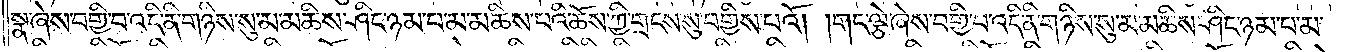སྣ་ཞེས་བགྱི་བ་འདི་ནི་གཉིས་སུ་མ་མཆིས་ཤིང་ཉམ་པ་མ་མཆིས་པའི་ཆོས་ཀྱི་གྲངས་སུ་བགྱིས་པའོ། །གང་ལྕེ་ཞེས་བགྱི་བ་འདི་ནི་གཉིས་སུ་མ་མཆིས་ཤིང་ཉམ་པ་མ་
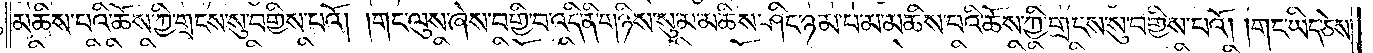མཆིས་པའི་ཆོས་ཀྱི་གྲངས་སུ་བགྱིས་པའོ། །གང་ལུས་ཞེས་བགྱི་བ་འདི་ནི་གཉིས་སུ་མ་མཆིས་ཤིང་ཉམ་པ་མ་མཆིས་པའི་ཆོས་ཀྱི་གྲངས་སུ་བགྱིས་པའོ། །གང་ཡིད་ཅེས་
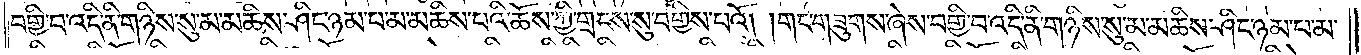བགྱི་བ་འདི་ནི་གཉིས་སུ་མ་མཆིས་ཤིང་ཉམ་པ་མ་མཆིས་པའི་ཆོས་ཀྱི་གྲངས་སུ་བགྱིས་པའོ། །གང་གཟུགས་ཞེས་བགྱི་བ་འདི་ནི་གཉིས་སུ་མ་མཆིས་ཤིང་ཉམ་པ་མ་
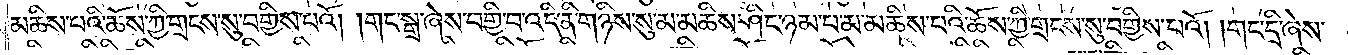མཆིས་པའི་ཆོས་ཀྱི་གྲངས་སུ་བགྱིས་པའོ། །གང་སྒྲ་ཞེས་བགྱི་བ་འདི་ནི་གཉིས་སུ་མ་མཆིས་ཤིང་ཉམ་པ་མ་མཆིས་པའི་ཆོས་ཀྱི་གྲངས་སུ་བགྱིས་པའོ། །གང་དྲི་ཞེས་
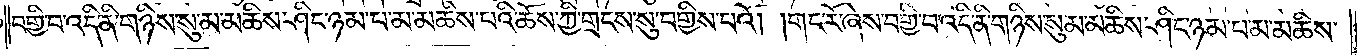བགྱི་བ་འདི་ནི་གཉིས་སུ་མ་མཆིས་ཤིང་ཉམ་པ་མ་མཆིས་པའི་ཆོས་ཀྱི་གྲངས་སུ་བགྱིས་པའོ། །གང་རོ་ཞེས་བགྱི་བ་འདི་ནི་གཉིས་སུ་མ་མཆིས་ཤིང་ཉམ་པ་མ་མཆིས་
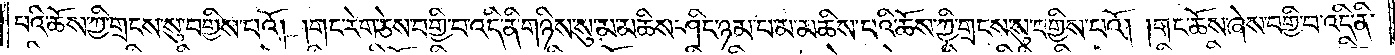པའི་ཆོས་ཀྱི་གྲངས་སུ་བགྱིས་པའོ། །གང་རེག་ཅེས་བགྱི་བ་འདི་ནི་གཉིས་སུ་མ་མཆིས་ཤིང་ཉམ་པ་མ་མཆིས་པའི་ཆོས་ཀྱི་གྲངས་སུ་བགྱིས་པའོ། །གང་ཆོས་ཞེས་བགྱི་བ་འདི་ནི་
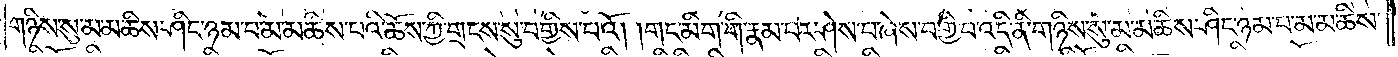གཉིས་སུ་མ་མཆིས་ཤིང་ཉམ་པ་མ་མཆིས་པའི་ཆོས་ཀྱི་གྲངས་སུ་བགྱིས་པའོ། །གང་མིག་གི་རྣམ་པར་ཤེས་པ་ཞེས་བགྱི་བ་འདི་ནི་གཉིས་སུ་མ་མཆིས་ཤིང་ཉམ་པ་མ་མཆིས་
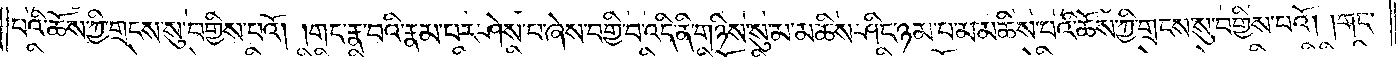པའི་ཆོས་ཀྱི་གྲངས་སུ་བགྱིས་པའོ། །གང་རྣ་བའི་རྣམ་པར་ཤེས་པ་ཞེས་བགྱི་བ་འདི་ནི་གཉིས་སུ་མ་མཆིས་ཤིང་ཉམ་པ་མ་མཆིས་པའི་ཆོས་ཀྱི་གྲངས་སུ་བགྱིས་པའོ། །གང་
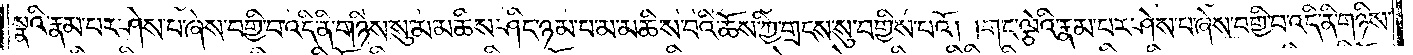སྣའི་རྣམ་པར་ཤེས་པ་ཞེས་བགྱི་བ་འདི་ནི་གཉིས་སུ་མ་མཆིས་ཤིང་ཉམ་པ་མ་མཆིས་པའི་ཆོས་ཀྱི་གྲངས་སུ་བགྱིས་པའོ། །གང་ལྕེའི་རྣམ་པར་ཤེས་པ་ཞེས་བགྱི་བ་འདི་ནི་གཉིས་
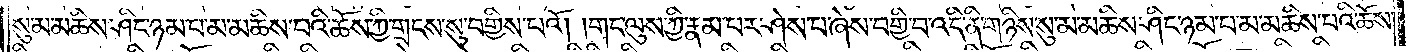སུ་མ་མཆིས་ཤིང་ཉམ་པ་མ་མཆིས་པའི་ཆོས་ཀྱི་གྲངས་སུ་བགྱིས་པའོ། །གང་ལུས་ཀྱི་རྣམ་པར་ཤེས་པ་ཞེས་བགྱི་བ་འདི་ནི་གཉིས་སུ་མ་མཆིས་ཤིང་ཉམ་པ་མ་མཆིས་པའི་ཆོས་
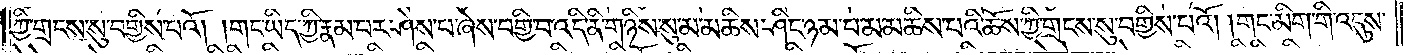ཀྱི་གྲངས་སུ་བགྱིས་པའོ། །གང་ཡིད་ཀྱི་རྣམ་པར་ཤེས་པ་ཞེས་བགྱི་བ་འདི་ནི་གཉིས་སུ་མ་མཆིས་ཤིང་ཉམ་པ་མ་མཆིས་པའི་ཆོས་ཀྱི་གྲངས་སུ་བགྱིས་པའོ། །གང་མིག་གི་འདུས་
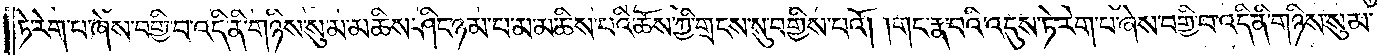ཏེ་རེག་པ་ཞེས་བགྱི་བ་འདི་ནི་གཉིས་སུ་མ་མཆིས་ཤིང་ཉམ་པ་མ་མཆིས་པའི་ཆོས་ཀྱི་གྲངས་སུ་བགྱིས་པའོ། །གང་རྣ་བའི་འདུས་ཏེ་རེག་པ་ཞེས་བགྱི་བ་འདི་ནི་གཉིས་སུ་མ་
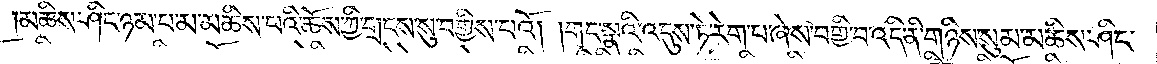མཆིས་ཤིང་ཉམ་པ་མ་མཆིས་པའི་ཆོས་ཀྱི་གྲངས་སུ་བགྱིས་པའོ། །གང་སྣའི་འདུས་ཏེ་རེག་པ་ཞེས་བགྱི་བ་འདི་ནི་གཉིས་སུ་མ་མཆིས་ཤིང་
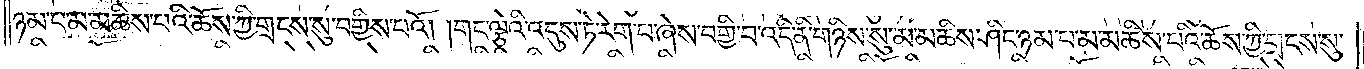ཉམ་པ་མ་མཆིས་པའི་ཆོས་ཀྱི་གྲངས་སུ་བགྱིས་པའོ། །གང་ལྕེའི་འདུས་ཏེ་རེག་པ་ཞེས་བགྱི་བ་འདི་ནི་གཉིས་སུ་མ་མཆིས་ཤིང་ཉམ་པ་མ་མཆིས་པའི་ཆོས་ཀྱི་གྲངས་སུ་
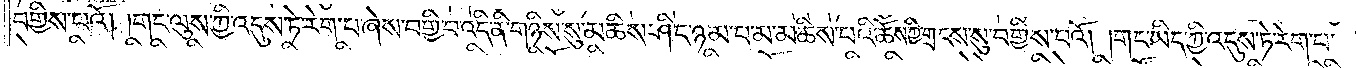བགྱིས་པའོ། །གང་ལུས་ཀྱི་འདུས་ཏེ་རེག་པ་ཞེས་བགྱི་བ་འདི་ནི་གཉིས་སུ་མ་མཆིས་ཤིང་ཉམ་པ་མ་མཆིས་པའི་ཆོས་ཀྱི་གྲངས་སུ་བགྱིས་པའོ། །གང་ཡིད་ཀྱི་འདུས་ཏེ་རེག་པ་
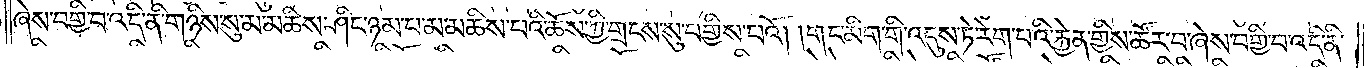ཞེས་བགྱི་བ་འདི་ནི་གཉིས་སུ་མ་མཆིས་ཤིང་ཉམ་པ་མ་མཆིས་པའི་ཆོས་ཀྱི་གྲངས་སུ་བགྱིས་པའོ། །གང་མིག་གི་འདུས་ཏེ་རེག་པའི་རྐྱེན་གྱིས་ཚོར་བ་ཞེས་བགྱི་བ་འདི་ནི་
